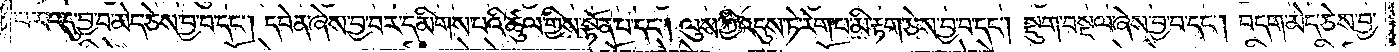པར་འདུ་བྱ་བ་མེད་ཅེས་བྱ་བ་དང༌། དབེན་ཞེས་བྱ་བར་དམིགས་པའི་ཚུལ་གྱིས་སྟོན་པ་དང༌། ལུས་ཀྱི་འདུས་ཏེ་རེག་པ་མི་རྟག་ཅེས་བྱ་བ་དང༌། སྡུག་བསྔལ་ཞེས་བྱ་བ་དང༌། བདག་མེད་ཅེས་བྱ་
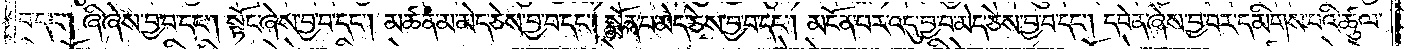བ་དང༌། ཞི་ཞེས་བྱ་བ་དང༌། སྟོང་ཞེས་བྱ་བ་དང༌། མཚན་མ་མེད་ཅེས་བྱ་བ་དང༌། སྨོན་པ་མེད་ཅེས་བྱ་བ་དང༌། མངོན་པར་འདུ་བྱ་བ་མེད་ཅེས་བྱ་བ་དང༌། དབེན་ཞེས་བྱ་བར་དམིགས་པའི་ཚུལ་
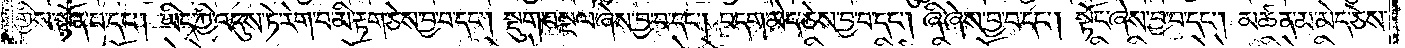གྱིས་སྟོན་པ་དང༌། ཡིད་ཀྱི་འདུས་ཏེ་རེག་པ་མི་རྟག་ཅེས་བྱ་བ་དང༌། སྡུག་བསྔལ་ཞེས་བྱ་བ་དང༌། བདག་མེད་ཅེས་བྱ་བ་དང༌། ཞི་ཞེས་བྱ་བ་དང༌། སྟོང་ཞེས་བྱ་བ་དང༌། མཚན་མ་མེད་ཅེས་
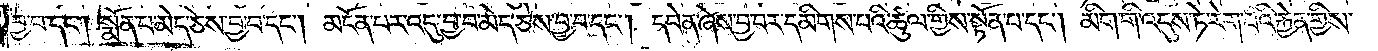བྱ་བ་དང༌། སྨོན་པ་མེད་ཅེས་བྱ་བ་དང༌། མངོན་པར་འདུ་བྱ་བ་མེད་ཅེས་བྱ་བ་དང༌། དབེན་ཞེས་བྱ་བར་དམིགས་པའི་ཚུལ་གྱིས་སྟོན་པ་དང༌། མིག་གི་འདུས་ཏེ་རེག་པའི་རྐྱེན་གྱིས་
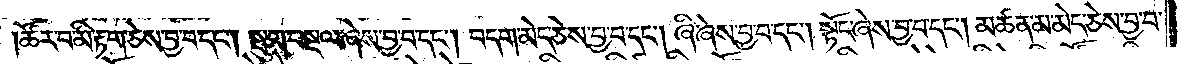ཚོར་བ་མི་རྟག་ཅེས་བྱ་བ་དང༌། སྡུག་བསྔལ་ཞེས་བྱ་བ་དང༌། བདག་མེད་ཅེས་བྱ་བ་དང༌། ཞི་ཞེས་བྱ་བ་དང༌། སྟོང་ཞེས་བྱ་བ་དང༌། མཚན་མ་མེད་ཅེས་བྱ་བ་
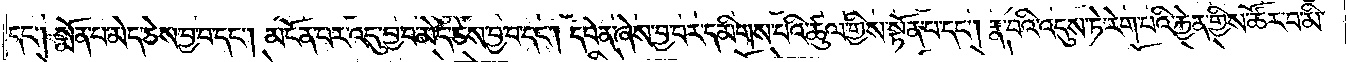དང༌། སྨོན་པ་མེད་ཅེས་བྱ་བ་དང༌། མངོན་པར་འདུ་བྱ་བ་མེད་ཅེས་བྱ་བ་དང༌། དབེན་ཞེས་བྱ་བར་དམིགས་པའི་ཚུལ་གྱིས་སྟོན་པ་དང༌། རྣ་བའི་འདུས་ཏེ་རེག་པའི་རྐྱེན་གྱིས་ཚོར་བ་མི་
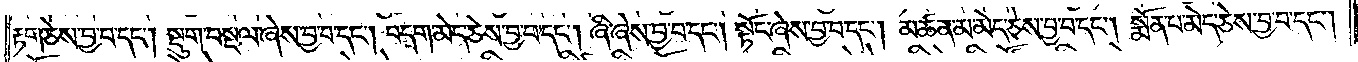རྟག་ཅེས་བྱ་བ་དང༌། སྡུག་བསྔལ་ཞེས་བྱ་བ་དང༌། བདག་མེད་ཅེས་བྱ་བ་དང༌། ཞི་ཞེས་བྱ་བ་དང༌། སྟོང་ཞེས་བྱ་བ་དང༌། མཚན་མ་མེད་ཅེས་བྱ་བ་དང༌། སྨོན་པ་མེད་ཅེས་བྱ་བ་དང༌།
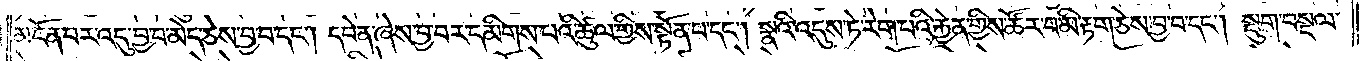མངོན་པར་འདུ་བྱ་བ་མེད་ཅེས་བྱ་བ་དང༌། དབེན་ཞེས་བྱ་བར་དམིགས་པའི་ཚུལ་གྱིས་སྟོན་པ་དང༌། སྣའི་འདུས་ཏེ་རེག་པའི་རྐྱེན་གྱིས་ཚོར་བ་མི་རྟག་ཅེས་བྱ་བ་དང༌། སྡུག་བསྔལ་
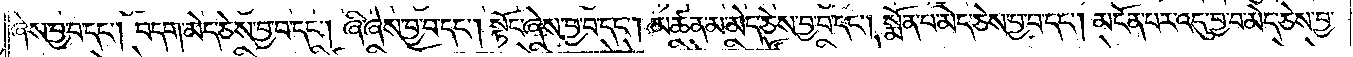ཞེས་བྱ་བ་དང༌། བདག་མེད་ཅེས་བྱ་བ་དང༌། ཞི་ཞེས་བྱ་བ་དང༌། སྟོང་ཞེས་བྱ་བ་དང༌། མཚན་མ་མེད་ཅེས་བྱ་བ་དང༌། སྨོན་པ་མེད་ཅེས་བྱ་བ་དང༌། མངོན་པར་འདུ་བྱ་བ་མེད་ཅེས་བྱ་
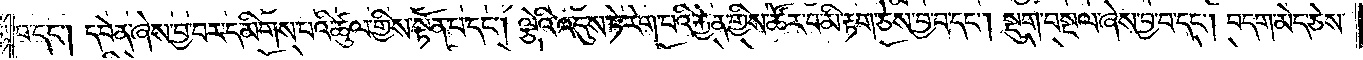བ་དང༌། དབེན་ཞེས་བྱ་བར་དམིགས་པའི་ཚུལ་གྱིས་སྟོན་པ་དང༌། ལྕེའི་འདུས་ཏེ་རེག་པའི་རྐྱེན་གྱིས་ཚོར་བ་མི་རྟག་ཅེས་བྱ་བ་དང༌། སྡུག་བསྔལ་ཞེས་བྱ་བ་དང༌། བདག་མེད་ཅེས་
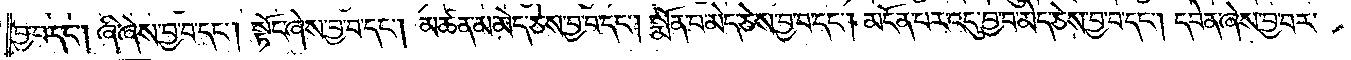བྱ་བ་དང༌། ཞི་ཞེས་བྱ་བ་དང༌། སྟོང་ཞེས་བྱ་བ་དང༌། མཚན་མ་མེད་ཅེས་བྱ་བ་དང༌། སྨོན་པ་མེད་ཅེས་བྱ་བ་དང༌། མངོན་པར་འདུ་བྱ་བ་མེད་ཅེས་བྱ་བ་དང༌། དབེན་ཞེས་བྱ་བར་
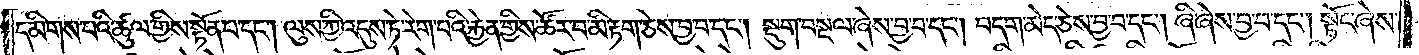དམིགས་པའི་ཚུལ་གྱིས་སྟོན་པ་དང༌། ལུས་ཀྱི་འདུས་ཏེ་རེག་པའི་རྐྱེན་གྱིས་ཚོར་བ་མི་རྟག་ཅེས་བྱ་བ་དང༌། སྡུག་བསྔལ་ཞེས་བྱ་བ་དང༌། བདག་མེད་ཅེས་བྱ་བ་དང༌། ཞི་ཞེས་བྱ་བ་དང༌། སྟོང་ཞེས་
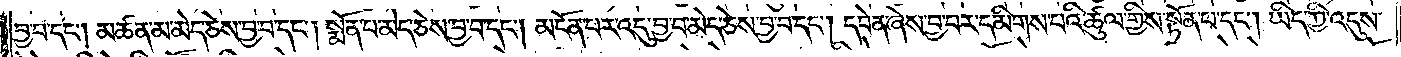བྱ་བ་དང༌། མཚན་མ་མེད་ཅེས་བྱ་བ་དང༌། སྨོན་པ་མེད་ཅེས་བྱ་བ་དང༌། མངོན་པར་འདུ་བྱ་བ་མེད་ཅེས་བྱ་བ་དང༌། དབེན་ཞེས་བྱ་བར་དམིགས་པའི་ཚུལ་གྱིས་སྟོན་པ་དང༌། ཡིད་ཀྱི་འདུས་
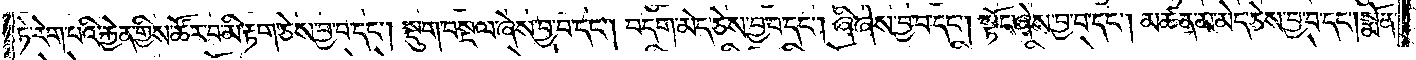ཏེ་རེག་པའི་རྐྱེན་གྱིས་ཚོར་བ་མི་རྟག་ཅེས་བྱ་བ་དང༌། སྡུག་བསྔལ་ཞེས་བྱ་བ་དང༌། བདག་མེད་ཅེས་བྱ་བ་དང༌། ཞི་ཞེས་བྱ་བ་དང༌། སྟོང་ཞེས་བྱ་བ་དང༌། མཚན་མ་མེད་ཅེས་བྱ་བ་དང༌། སྨོན་
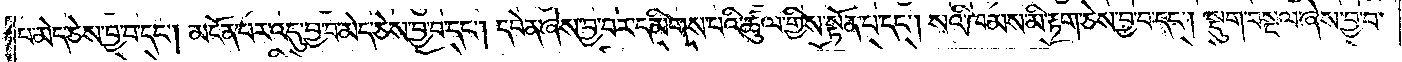པ་མེད་ཅེས་བྱ་བ་དང༌། མངོན་པར་འདུ་བྱ་བ་མེད་ཅེས་བྱ་བ་དང༌། དབེན་ཞེས་བྱ་བར་དམིགས་པའི་ཚུལ་གྱིས་སྟོན་པ་དང༌། སའི་ཁམས་མི་རྟག་ཅེས་བྱ་བ་དང༌། སྡུག་བསྔལ་ཞེས་བྱ་བ་
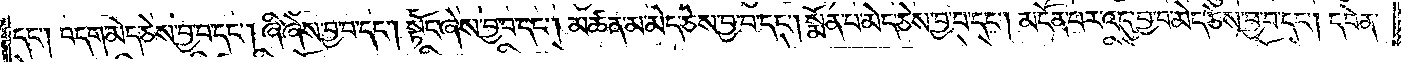དང༌། བདག་མེད་ཅེས་བྱ་བ་དང༌། ཞི་ཞེས་བྱ་བ་དང༌། སྟོང་ཞེས་བྱ་བ་དང༌། མཚན་མ་མེད་ཅེས་བྱ་བ་དང༌། སྨོན་པ་མེད་ཅེས་བྱ་བ་དང༌། མངོན་པར་འདུ་བྱ་བ་མེད་ཅེས་བྱ་བ་དང༌། དབེན་
